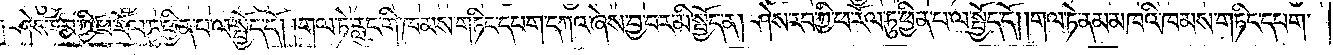ན༑ ཤེས་རབ་ཀྱི་ཕ་རོལ་ཏུ་ཕྱིན་པ་ལ་སྤྱོད་དོ། །གལ་ཏེ་རླུང་གི་ཁམས་གཏིང་དཔག་དཀའ་ཞེས་བྱ་བར་མི་སྤྱོད་ན། ཤེས་རབ་ཀྱི་ཕ་རོལ་ཏུ་ཕྱིན་པ་ལ་སྤྱོད་དོ། །གལ་ཏེ་ནམ་མཁའི་ཁམས་གཏིང་དཔག་
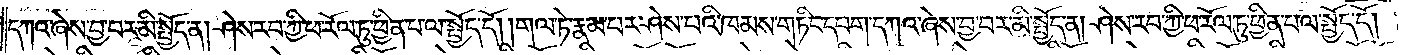དཀའ་ཞེས་བྱ་བར་མི་སྤྱོད་ན། ཤེས་རབ་ཀྱི་ཕ་རོལ་ཏུ་ཕྱིན་པ་ལ་སྤྱོད་དོ། །གལ་ཏེ་རྣམ་པར་ཤེས་པའི་ཁམས་གཏིང་དཔག་དཀའ་ཞེས་བྱ་བར་མི་སྤྱོད་ན། ཤེས་རབ་ཀྱི་ཕ་རོལ་ཏུ་ཕྱིན་པ་ལ་སྤྱོད་དོ། །
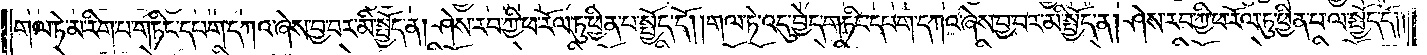གལ་ཏེ་མ་རིག་པ་གཏིང་དཔག་དཀའ་ཞེས་བྱ་བར་མི་སྤྱོད་ན། ཤེས་རབ་ཀྱི་ཕ་རོལ་ཏུ་ཕྱིན་པ་ལ་སྤྱོད་དོ། །གལ་ཏེ་འདུ་བྱེད་གཏིང་དཔག་དཀའ་ཞེས་བྱ་བར་མི་སྤྱོད་ན། ཤེས་རབ་ཀྱི་ཕ་རོལ་ཏུ་ཕྱིན་པ་ལ་སྤྱོད་དོ། །
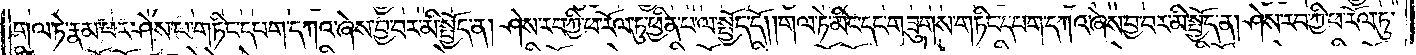གལ་ཏེ་རྣམ་པར་ཤེས་པ་གཏིང་དཔག་དཀའ་ཞེས་བྱ་བར་མི་སྤྱོད་ན། ཤེས་རབ་ཀྱི་ཕ་རོལ་ཏུ་ཕྱིན་པ་ལ་སྤྱོད་དོ། །གལ་ཏེ་མིང་དང་གཟུགས་གཏིང་དཔག་དཀའ་ཞེས་བྱ་བར་མི་སྤྱོད་ན། ཤེས་རབ་ཀྱི་ཕ་རོལ་ཏུ་
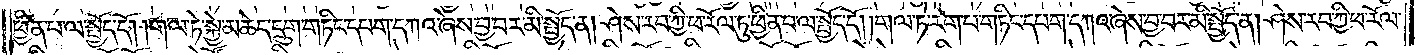ཕྱིན་པ་ལ་སྤྱོད་དོ། །གལ་ཏེ་སྐྱེ་མཆེད་དྲུག་གཏིང་དཔག་དཀའ་ཞེས་བྱ་བར་མི་སྤྱོད་ན། ཤེས་རབ་ཀྱི་ཕ་རོལ་ཏུ་ཕྱིན་པ་ལ་སྤྱོད་དོ། །གལ་ཏེ་རེག་པ་གཏིང་དཔག་དཀའ་ཞེས་བྱ་བར་མི་སྤྱོད་ན། ཤེས་རབ་ཀྱི་ཕ་རོལ་
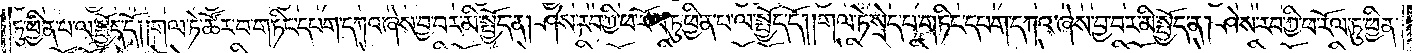ཏུ་ཕྱིན་པ་ལ་སྤྱོད་དོ། །གལ་ཏེ་ཚོར་བ་གཏིང་དཔག་དཀའ་ཞེས་བྱ་བར་མི་སྤྱོད་ན། ཤེས་རབ་ཀྱི་ཕ་རོལ་ཏུ་ཕྱིན་པ་ལ་སྤྱོད་དོ། །གལ་ཏེ་སྲེད་པ་གཏིང་དཔག་དཀའ་ཞེས་བྱ་བར་མི་སྤྱོད་ན། ཤེས་རབ་ཀྱི་ཕ་རོལ་ཏུ་ཕྱིན་
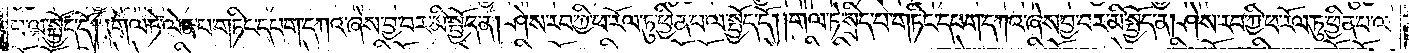པ་ལ་སྤྱོད་དོ། །གལ་ཏེ་ལེན་པ་གཏིང་དཔག་དཀའ་ཞེས་བྱ་བར་མི་སྤྱོད་ན། ཤེས་རབ་ཀྱི་ཕ་རོལ་ཏུ་ཕྱིན་པ་ལ་སྤྱོད་དོ། །གལ་ཏེ་སྲིད་པ་གཏིང་དཔག་དཀའ་ཞེས་བྱ་བར་མི་སྤྱོད་ན། ཤེས་རབ་ཀྱི་ཕ་རོལ་ཏུ་ཕྱིན་པ་ལ་
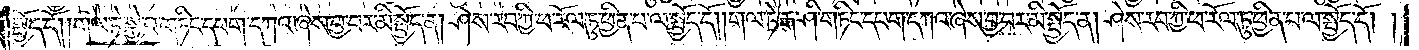སྤྱོད་དོ། །གལ་ཏེ་སྐྱེ་བ་གཏིང་དཔག་དཀའ་ཞེས་བྱ་བར་མི་སྤྱོད་ན། ཤེས་རབ་ཀྱི་ཕ་རོལ་ཏུ་ཕྱིན་པ་ལ་སྤྱོད་དོ། །གལ་ཏེ་རྒ་ཤི་གཏིང་དཔག་དཀའ་ཞེས་བྱ་བར་མི་སྤྱོད་ན། ཤེས་རབ་ཀྱི་ཕ་རོལ་ཏུ་ཕྱིན་པ་ལ་སྤྱོད་དོ། །
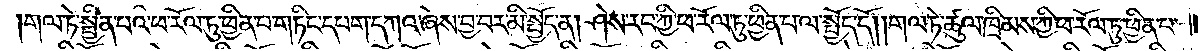གལ་ཏེ་སྦྱིན་པའི་ཕ་རོལ་ཏུ་ཕྱིན་པ་གཏིང་དཔག་དཀའ་ཞེས་བྱ་བར་མི་སྤྱོད་ན། ཤེས་རབ་ཀྱི་ཕ་རོལ་ཏུ་ཕྱིན་པ་ལ་སྤྱོད་དོ། །གལ་ཏེ་ཚུལ་ཁྲིམས་ཀྱི་ཕ་རོལ་ཏུ་ཕྱིན་པ་
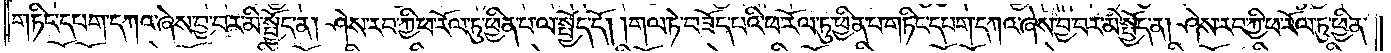གཏིང་དཔག་དཀའ་ཞེས་བྱ་བར་མི་སྤྱོད་ན། ཤེས་རབ་ཀྱི་ཕ་རོལ་ཏུ་ཕྱིན་པ་ལ་སྤྱོད་དོ། །གལ་ཏེ་བཟོད་པའི་ཕ་རོལ་ཏུ་ཕྱིན་པ་གཏིང་དཔག་དཀའ་ཞེས་བྱ་བར་མི་སྤྱོད་ན། ཤེས་རབ་ཀྱི་ཕ་རོལ་ཏུ་ཕྱིན་
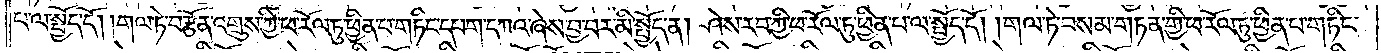པ་ལ་སྤྱོད་དོ། །གལ་ཏེ་བརྩོན་འགྲུས་ཀྱི་ཕ་རོལ་ཏུ་ཕྱིན་པ་གཏིང་དཔག་དཀའ་ཞེས་བྱ་བར་མི་སྤྱོད་ན། ཤེས་རབ་ཀྱི་ཕ་རོལ་ཏུ་ཕྱིན་པ་ལ་སྤྱོད་དོ། །གལ་ཏེ་བསམ་གཏན་གྱི་ཕ་རོལ་ཏུ་ཕྱིན་པ་གཏིང་
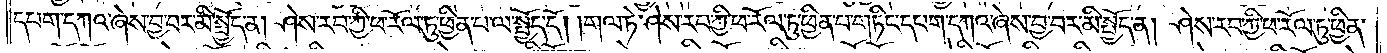དཔག་དཀའ་ཞེས་བྱ་བར་མི་སྤྱོད་ན། ཤེས་རབ་ཀྱི་ཕ་རོལ་ཏུ་ཕྱིན་པ་ལ་སྤྱོད་དོ། །གལ་ཏེ་ཤེས་རབ་ཀྱི་ཕ་རོལ་ཏུ་ཕྱིན་པ་གཏིང་དཔག་དཀའ་ཞེས་བྱ་བར་མི་སྤྱོད་ན། ཤེས་རབ་ཀྱི་ཕ་རོལ་ཏུ་ཕྱིན་
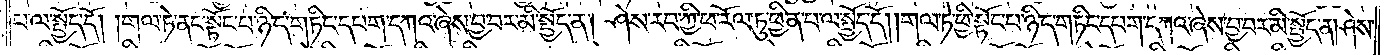པ་ལ་སྤྱོད་དོ། །གལ་ཏེ་ནང་སྟོང་པ་ཉིད་གཏིང་དཔག་དཀའ་ཞེས་བྱ་བར་མི་སྤྱོད་ན། ཤེས་རབ་ཀྱི་ཕ་རོལ་ཏུ་ཕྱིན་པ་ལ་སྤྱོད་དོ། །གལ་ཏེ་ཕྱི་སྟོང་པ་ཉིད་གཏིང་དཔག་དཀའ་ཞེས་བྱ་བར་མི་སྤྱོད་ན། ཤེས་
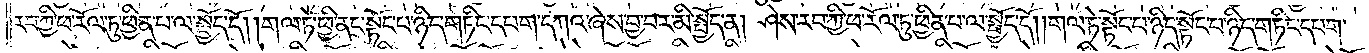རབ་ཀྱི་ཕ་རོལ་ཏུ་ཕྱིན་པ་ལ་སྤྱོད་དོ། །གལ་ཏེ་ཕྱི་ནང་སྟོང་པ་ཉིད་གཏིང་དཔག་དཀའ་ཞེས་བྱ་བར་མི་སྤྱོད་ན། ཤེས་རབ་ཀྱི་ཕ་རོལ་ཏུ་ཕྱིན་པ་ལ་སྤྱོད་དོ། །གལ་ཏེ་སྟོང་པ་ཉིད་སྟོང་པ་ཉིད་གཏིང་དཔག་
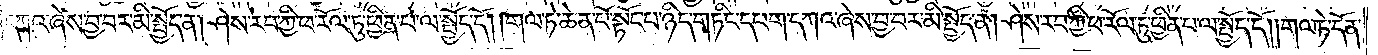དཀའ་ཞེས་བྱ་བར་མི་སྤྱོད་ན། ཤེས་རབ་ཀྱི་ཕ་རོལ་ཏུ་ཕྱིན་པ་ལ་སྤྱོད་དོ། །གལ་ཏེ་ཆེན་པོ་སྟོང་པ་ཉིད་གཏིང་དཔག་དཀའ་ཞེས་བྱ་བར་མི་སྤྱོད་ན། ཤེས་རབ་ཀྱི་ཕ་རོལ་ཏུ་ཕྱིན་པ་ལ་སྤྱོད་དོ། །གལ་ཏེ་དོན་
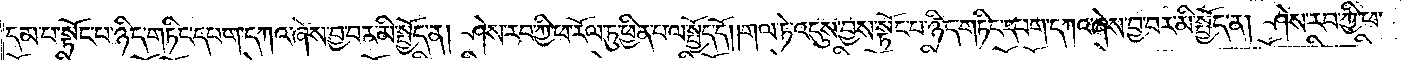དམ་པ་སྟོང་པ་ཉིད་གཏིང་དཔག་དཀའ་ཞེས་བྱ་བར་མི་སྤྱོད་ན། ཤེས་རབ་ཀྱི་ཕ་རོལ་ཏུ་ཕྱིན་པ་ལ་སྤྱོད་དོ། །གལ་ཏེ་འདུས་བྱས་སྟོང་པ་ཉིད་གཏིང་དཔག་དཀའ་ཞེས་བྱ་བར་མི་སྤྱོད་ན། ཤེས་རབ་ཀྱི་ཕ་
